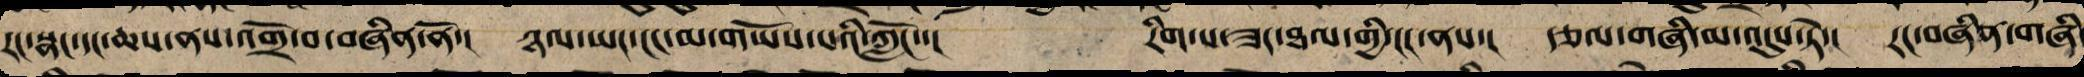རང་སྣང་དང་ཆས་ནས་འགྲོ་བ་བཞིན་ནོ་། ཉལ་ཡང་ངང་མ་གཡོས་པའི་ཀློང་་། རིག་པ་ཟང་ཐལ་གྱི་ངང་ནས་། རྩལ་གཞི་ལ་འདུས་ཏེ་། རང་བཞིན་གཞི་
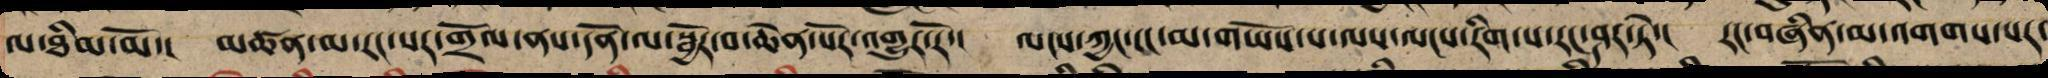ལ་ཐིམ་མོ་། མཚན་མ་རང་སར་གྲོལ་ནས་དོན་ལ་སྦྱོར་བ་ཆེན་པོར་འགྱུར་རོ་། ལངས་ཀྱང་ངང་མ་གཡོས་པ་ལས་ལངས་རིག་པ་རང་ཤར་ཏེ་། རང་བཞིན་མ་འགགས་པར་
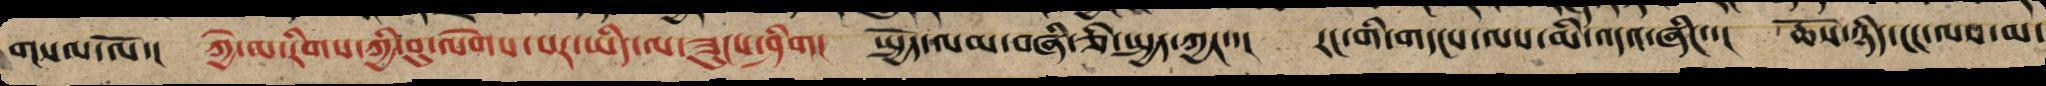གསལ་ལོ་། ཀྱེ་མ་རིགས་ཀྱི་བུ་ལེགས་པར་ཡིད་ལ་ཟུང་ཞིག། སྤྱོད་ལམ་བཞི་ཅི་སྤྱད་ཀྱང་་། རང་གི་གདངས་ལས་མི་འདའ་ཞིང་་། ཆོས་ཉིད་ངང་ལས་མ་
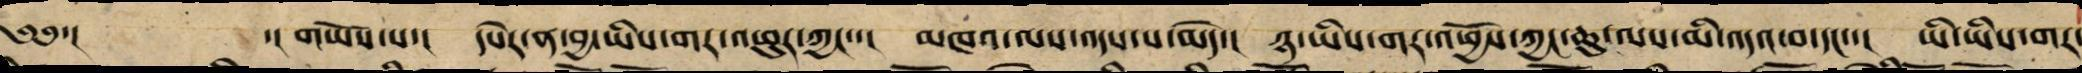༄༅་། ་། གཡོས་པ་། དཔེར་ན་བྱ་ཡིས་གར་འཕུར་ཀྱང་་། མཁའ་ལས་འདའ་བ་མེད་། ཉ་ཡིས་གར་འཕྱོས་ཀྱང་ཆུ་ལས་མི་འདའ་བ་དང་་། ཡི་ཡིས་གར་
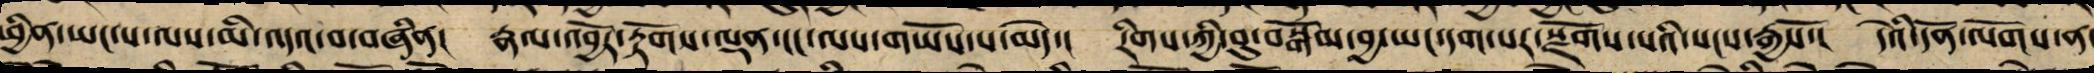ཕྱིན་ཡང་ས་ལས་མི་འདའ་བ་བཞིན། རྣལ་འབྱོར་རྟོགས་ལྡན་ངང་ལས་གཡོས་པ་མེད་། རིགས་ཀྱི་བུ་བསྒོམ་བྱ་ཡང་དག་པར་སྫོགས་པའི་སངས་རྒྱས་སོ་། དེའི་དོན་ལོགས་ན་
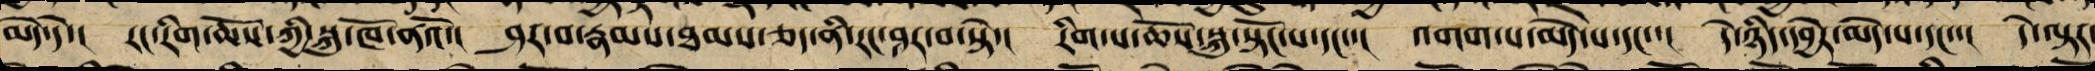མེད་དེ་། རང་རིག་ཆོས་ཀྱི་སྐུ་ཁོ་ནའོ་། ཤར་བ་རྣམས་ཐམས་ཅད་ནི་རང་ཤར་བ་སྟེ་། རིག་པ་ཆོས་སྐུ་སྟོང་པ་དང་་། འགག་པ་མེད་པ་དང་་། དེ་ཉིད་དབྱེར་མེད་པ་དང་་། དེ་ལྟར་
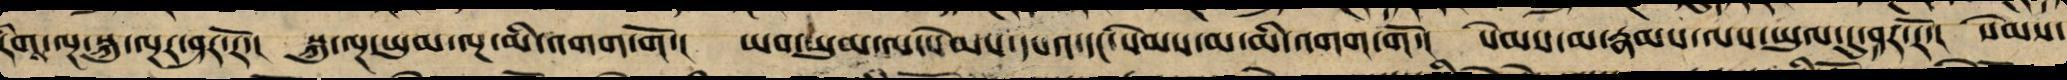རིག་ལྔ་སྐུ་ལྔར་ཤར་རོ་། སྐུ་ལྔ་ཡུམ་ལྔ་མི་འགག་གོ་། ཡབ་ཡུམ་ལ་སེམས་དཔའ་དང་སེམས་མ་མི་འགག་གོ་། སེམས་མ་རྣམས་ལས་ཡུལ་དུ་ཤར་རོ་། སེམས་
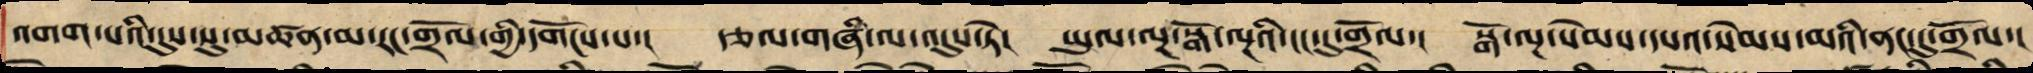འགག་པའི་དུས་སུ་མཚན་མ་རང་གྲོལ་གྱི་དགོངས་པ་། རྩལ་གཞི་ལ་འདུས་ཏེ་། ཡུལ་ལྔ་སྒོ་ལྔའི་ངང་དུ་གྲོལ་། སྒོ་ལྔ་སེམས་དཔའ་སེམས་མའི་ནང་དུ་གྲོལ་།
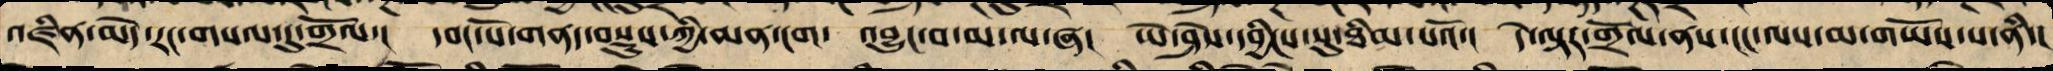འཛིན་མེད་རང་གསལ་དུ་གྲོལ་། དབང་པོ་གནད་བསྡུས་ཀྱི་མན་ངག་ འབྱུང་བ་མ་ལ་ཞ། ཡེ་ཤེས་དབྱིངས་སུ་ཐིམ་པའོ་། དེ་ལྟར་གྲོལ་ནས་ངང་ལས་མ་གཡོས་པ་ནི་།
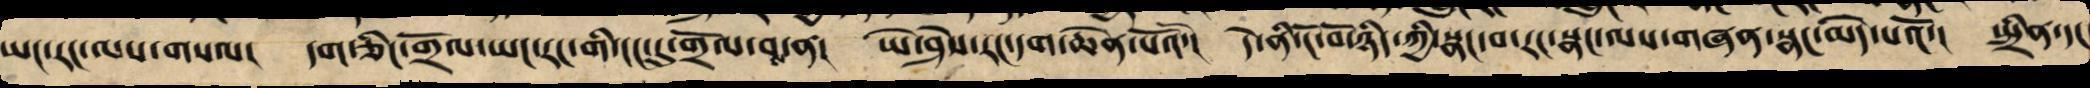ཡང་རང་ལས་གསལ། དག་ཅིང་གྲོལ་ཡང་རང་གི་ངང་དུ་གྲོལ་བ་ན། ཡེ་ཤེས་རང་དག་ཆེན་པོའོ་། དེ་ནི་ངོ་བོ་ཉིད་ཀྱི་སྣང་བ་རང་སྣང་ལས་གཞན་སྣང་མེད་པའོ་། སྤྲིན་དང
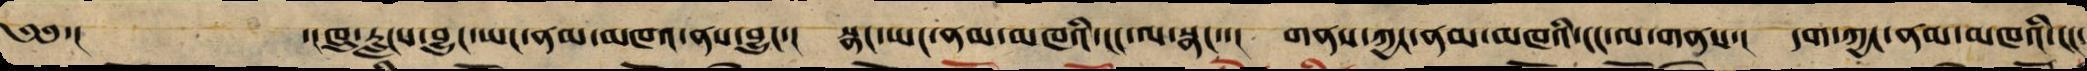༄༅་། ་།ཁུ་རླངས་བྱུང་ཡང་ནམ་མཁའ་ནས་བྱུང་། སྣང་ཡང་ནམ་མཁའི་ངང་ལ་སྣང་་། གནས་ཀྱང་ནམ་མཁའི་ངང་ལ་གནས་། དག་ཀྱང་ནམ་མཁའི་ངང་
